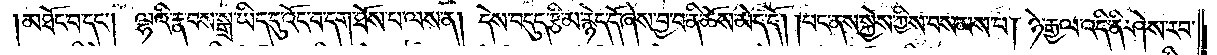མཐོང་བ་དང༌། ལྷའི་རྣ་བས་སྒྲ་ཡིད་དུ་འོང་བ་དག་ཐོས་པ་ལས་ན། དེས་བདུད་རྩི་མ་རྙེད་དོ་ཞེས་བྱ་བ་ནི་ཆོས་མེད་དོ། །པང་ནས་སྐྱེས་ཀྱིས་བསམས་པ། ཉེ་རྒྱལ་འདི་ནི་ཤེས་རབ་
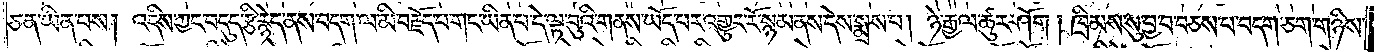ཅན་ཡིན་པས། འདིས་ཀྱང་བདུད་རྩི་རྙེད་ནས་བདག་ལ་མི་བརྗོད་པ་གང་ཡིན་པ་དེ་ལྟ་བུའི་གནས་ཡོད་པར་འགྱུར་རོ་སྙམ་ནས་དེས་སྨྲས་པ། ཉེ་རྒྱལ་ཚུར་ཤོག། ཁྲིམས་སུ་བྱ་བ་བཅས་པ་བདག་ཅག་གཉིས་
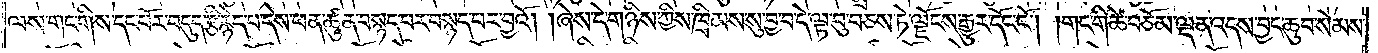ལས་གང་གིས་དང་པོར་བདུད་རྩི་རྙེད་པ་དེས་ཕན་ཚུན་བསྙད་པར་བསྙད་པར་བྱའོ། །ཞེས་དེ་གཉིས་ཀྱིས་ཁྲིམས་སུ་བྱ་བ་དེ་ལྟ་བུ་བཅས་ཏེ་ལྗོངས་རྒྱུར་དོང་ངོ༌། །གང་གི་ཚེ་བཅོམ་ལྡན་འདས་བྱང་ཆུབ་སེམས་
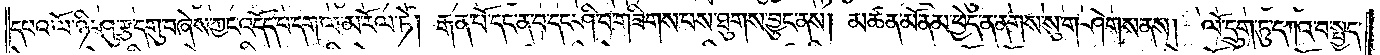དཔའ་ལོ་ཉི་ཤུ་རྩ་དགུ་བཞེས་ཀྱང་འདོད་པ་དག་ལ་མ་རོལ་ཏེ། རྒན་པོ་དང་ན་བ་དང་ཤི་བ་གཟིགས་པས་ཐུགས་བྱུང་ནས། མཚན་མོ་ནམ་ཕྱེད་ན་ནགས་སུ་གཤེགས་ནས། ལོ་དྲུག་ཏུ་དཀའ་བ་སྤྱད་
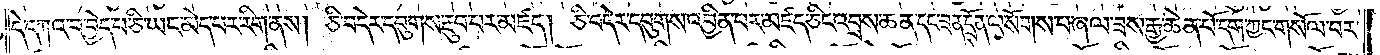དེ་དཀའ་བ་བྱེད་པ་ཅི་ཡང་མེད་པར་རིག་ནས། ཅི་བདེར་དབུགས་རྔུབ་པར་མཛད། ཅི་བདེར་དབུགས་འབྱིན་པར་མཛད་ཅིང་འབྲས་ཆན་དང་ཟན་དྲོན་ལ་སོགས་པ་ཞལ་ཟས་རྒྱ་ཆེན་པོ་དག་ཀྱང་གསོལ་བར་
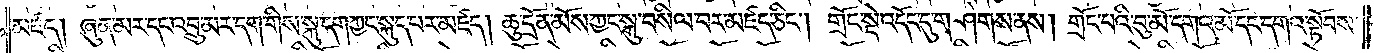མཛད། ཞུན་མར་དང་འབྲུ་མར་དག་གིས་སྐུ་དག་ཀྱང་སྐུད་པར་མཛད། ཆུ་དྲོན་མོས་ཀྱང་སྐུ་བསིལ་བར་མཛད་ཅིང༌། གྲོང་སྡེ་འདོང་དུ་གཤེགས་ནས། གྲོང་པའི་བུ་མོ་དགའ་མོ་དང་དགའ་སྟོབས་
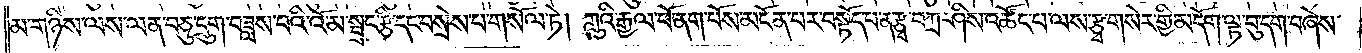མ་གཉིས་ལས་ལན་བཅུ་དྲུག་བཟླས་པའི་འོ་མ་སྦྲང་རྩི་དང་བསྲེས་པ་གསོལ་ཏེ། ཀླུའི་རྒྱལ་པོ་ནག་པོས་མངོན་པར་བསྟོད་པ་ན་རྩྭ་བཀྲ་ཤིས་འཚོང་པ་ལས་རྩྭ་གསེར་གྱི་མདོག་ལྟ་བུ་དག་བཞེས་
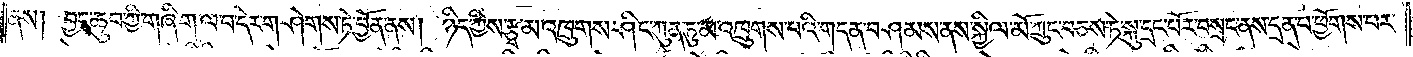ནས། བྱང་ཆུབ་ཀྱི་གཞི་ག་ལ་བ་དེར་གཤེགས་ཏེ་བྱོན་ནས། ཉིད་ཀྱིས་རྩྭ་མ་འཁྲུགས་ཤིང་ཀུན་ཏུ་མ་འཁྲུགས་པའི་གདན་བཤམས་ནས་སྐྱིལ་མོ་ཀྲུང་བཅས་ཏེ་སྐུ་དྲང་པོར་བསྲང་ནས་དྲན་པ་ཕྱོགས་པར་
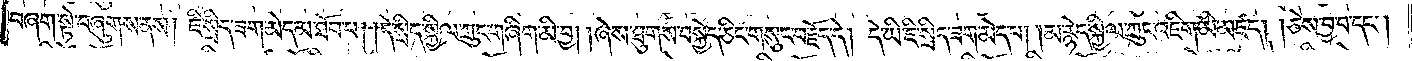བཞག་སྟེ་བཞུགས་ནས། ཇི་སྲིད་ཟག་མེད་མ་ཐོབ་པ། །དེ་སྲིད་སྐྱིལ་ཀྲུང་གཞིག་མི་བྱ། །ཞེས་ཐུགས་བསྐྱེད་ཅིང་གསུང་བརྗོད་དེ། དེ་ཡི་ཇི་སྲིད་ཟག་མེད་པ། །མ་རྙེད་སྐྱིལ་ཀྲུང་འཇིག་མི་མཛད། །ཅེས་བྱ་བ་དང༌།
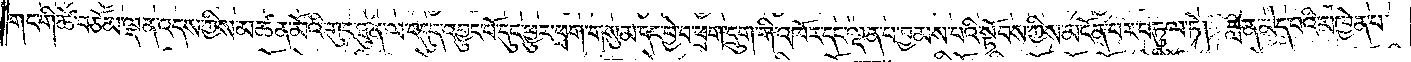གང་གི་ཚེ་བཅོམ་ལྡན་འདས་ཀྱིས་མཚན་མོའི་གུང་ཐུན་ལ་བདུད་འབྱུང་པོ་དུང་ཕྱུར་ཕྲག་གསུམ་དང་བྱེ་བ་ཕྲག་དྲུག་གི་འཁོར་དང་ལྡན་པ་བྱམས་པའི་སྟོབས་ཀྱིས་མངོན་པར་བཏུལ་ཏེ། བླ་ན་མེད་པའི་མཁྱེན་པ་
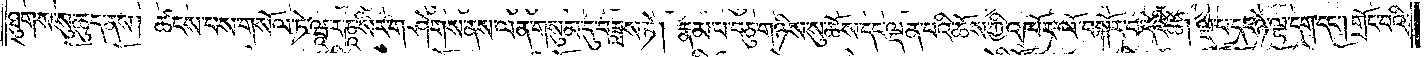ཐུགས་སུ་ཆུད་ནས། ཚངས་པས་གསོལ་ཏེ་ཝཱ་ར་ཎཱ་སིར་གཤེགས་ནས་ལན་གསུམ་དུ་བཟླས་ཏེ། རྣམ་པ་བཅུ་གཉིས་སུ་ཆོས་དང་ལྡན་པའི་ཆོས་ཀྱི་འཁོར་ལོ་བསྐོར་བ་དེའི་ཚེ། ལྔ་པ་དང་ཉེ་ལྔ་དག་དང༌། གྲོང་བའི་
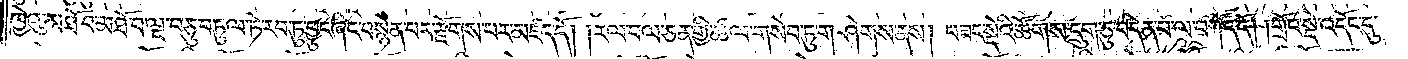ཁྱེའུ་མཐེ་བ་མཐོ་བ་ལྔ་བཅུ་བཏུལ་ཏེ་རབ་ཏུ་ཕྱུང་ཞིང་བསྙེན་པར་རྫོགས་པར་མཛད་དོ། །རལ་བལ་ཅན་གྱི་ཚལ་གསེབ་ཏུ་གཤེགས་ནས། བཟང་སྡེའི་ཚོགས་དྲུག་ཅུ་བདེན་པ་ལ་བཀོད་དོ། །གྲོང་སྡེ་འདོང་དུ་
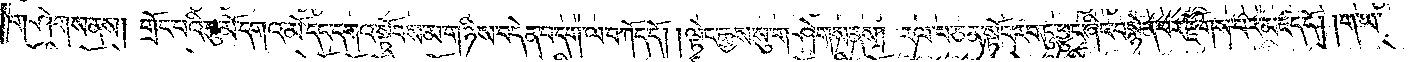གཤེགས་ནས། གྲོང་པའི་བུ་མོ་དགའ་མོ་དང་དགའ་སྟོབས་མ་གཉིས་བདེན་པ་དག་ལ་བཀོད་དོ། །ལྟེང་རྒྱས་སུ་གཤེགས་ནས། རལ་པ་ཅན་སྟོང་རབ་ཏུ་ཕྱུང་ཞིང་བསྙེན་པར་རྫོགས་པར་མཛད་དོ། །ག་ཡ་
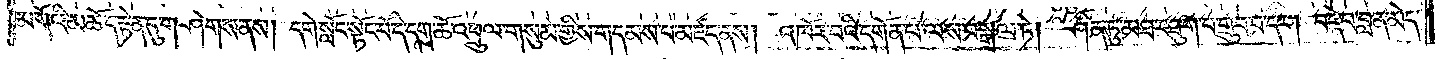མགོའི་མཆོད་རྟེན་དུ་གཤེགས་ནས། དགེ་སློང་སྟོང་པོ་དེ་དག་ཆོ་འཕྲུལ་གསུམ་གྱིས་གདམས་པ་མཛད་ནས། འཁོར་བའི་དགོན་པ་ལས་བསྒྲལ་ཏེ། ཤིན་ཏུ་མཐར་ཐུག་པ་གྲུབ་པ་དང༌། བདེ་བ་བླ་ན་མེད་
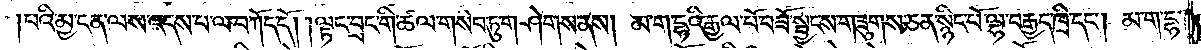།པའི་མྱ་ངན་ལས་འདས་པ་ལ་བཀོད་དོ། །ལྟང་བྲང་གི་ཚལ་གསེབ་ཏུ་གཤེགས་ནས། མ་ག་དྷའི་རྒྱལ་པོ་བཟོ་སྦྱངས་གཟུགས་ཅན་སྙིང་པོ་ལྷ་བརྒྱད་ཁྲི་དང༌། མ་ག་དྷ་
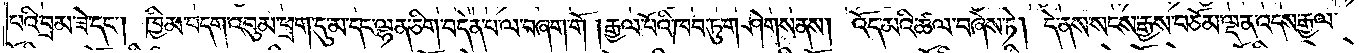པའི་བྲམ་ཟེ་དང༌། ཁྱིམ་བདག་འབུམ་ཕྲག་དུ་མ་དང་ལྷན་ཅིག་བདེན་པ་ལ་བཞག་གོ །རྒྱལ་པོའི་ཁབ་ཏུ་གཤེགས་ནས། འོད་མའི་ཚལ་བཞེས་ཏེ། དེ་ནས་སངས་རྒྱས་བཅོམ་ལྡན་འདས་རྒྱལ་
